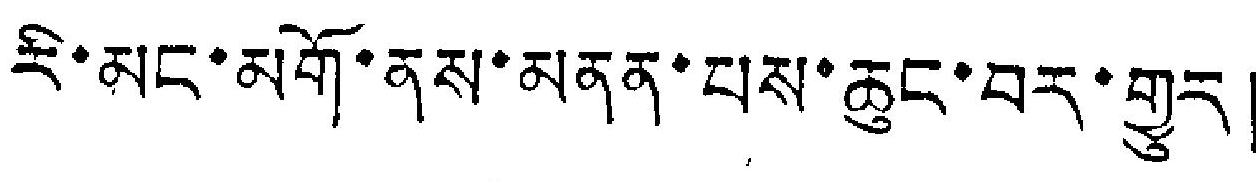རི་མང་མགོ་ནས་མནན་པས་ཆུང་བར་གྱུར།
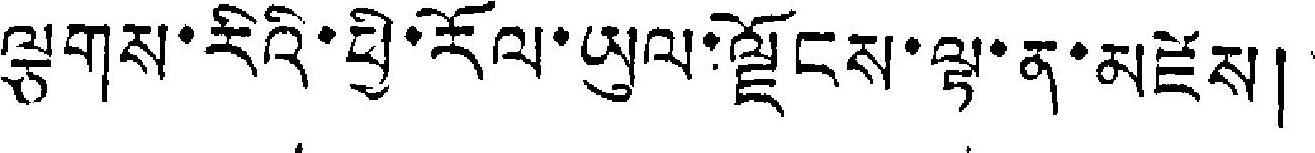ལྕགས་རིའི་ཕྱི་རོལ་ཡུལ་ལྗོངས་ལྟ་ན་མཛེས།
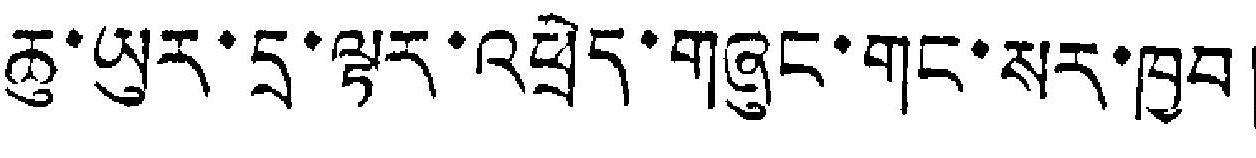ཆུ་ཡུར་དྲ་ལྟར་འཕྲེད་གཞུང་གང་སར་ཁྱབ།
